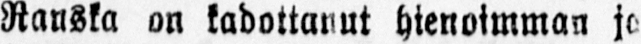Ranska on kadottanut hienoimman jo
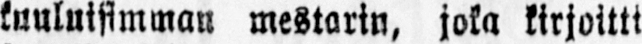kuuluisimman mestarin, joka kirjoitti
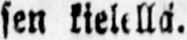sen kielellä.
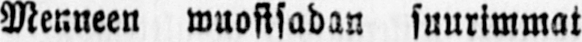Menneen wuosisadan suurimmat
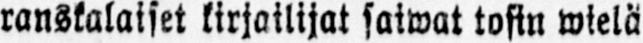ranskalaiset kirjailijat saiwat tosin wielä
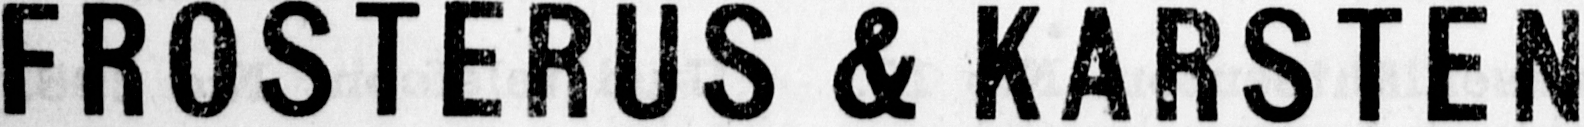FROSTERUS & KARSTEN.
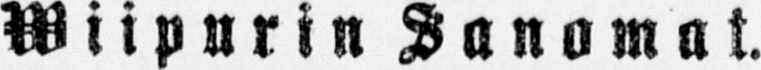Wiipurin Sanomat.
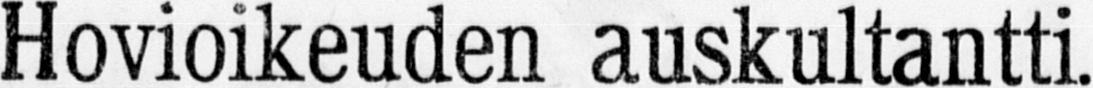Hovioikeuden auskultantti.
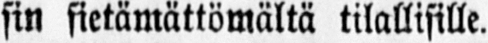sin sietämättömältä tilallisille.
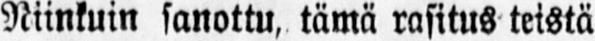Niinkuin sanottu, tämä rasitus teistä
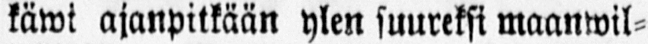käwi ajanpitkään ylen suureksi maanwil-
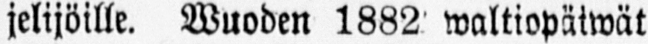jelijöille. Wuoden 1882 waltiopäiwät
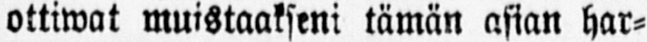ottiwat muistaakseni tämän asian har-
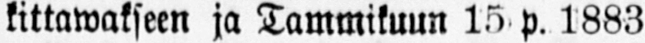kittawakseen ja Tammikuun 15. p. 1883
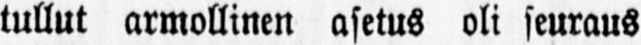tullut armollinen asetus oli seuraus
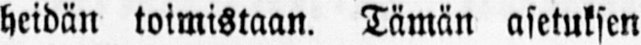heidän toimistaan. Tämän asetuksen
